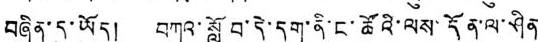བཞིན་དུ་ཡོད། བཀའ་སློབ་དེ་དག་ནི་ང་ཚོའི་ལས་དོན་ལ་ཤིན
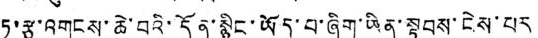ཏུ་རྩ་འགངས་ཆེ་བའི་དོན་སྙིང་ཡོད་པ་ཞིག་ཡིན་སྟབས་ངེས་པར
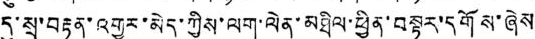དུ་སྲ་བརྟན་འགྱུར་མེད་ཀྱིས་ལག་ལེན་མཐིལ་ཕྱིན་བསྟར་དགོས་ཞེས
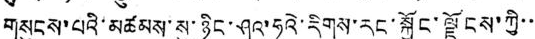གསུངས་པའི་མཚམས་སུ་ཉིང་ཤའ་ཧུའེ་རིགས་རང་སྐྱོང་ལྗོངས་ཀྱི་་
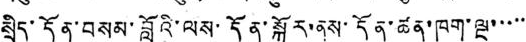སྲིད་དོན་བསམ་བློའི་ལས་དོན་སྐོར་ནས་དོན་ཚན་ཁག་ལྔ་་་་་་
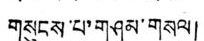གསུངས་པ་གཤམ་གསལ།
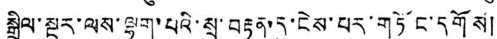སྒྲིལ་སྔར་ལས་ལྷག་པའི་སྲ་བརྟན་དུ་ངེས་པར་གཏོང་དགོས།
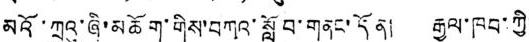མའོ་ཀྲུའུ་ཞི་མཆོག་གིས་བཀའ་སློབ་གནང་དོན། རྒྱལ་ཁབ་ཀྱི་
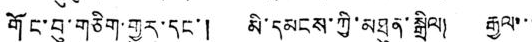གོང་བུ་གཅིག་གྱུར་དང་། མི་དམངས་ཀྱི་མཐུན་སྒྲིལ། རྒྱལ་་་
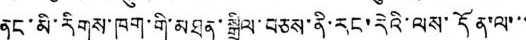ནང་མི་རིགས་ཁག་གི་མཐུན་སྒྲིལ་བཅས་ནི་རང་རེའི་ལས་དོན་ལ་་་
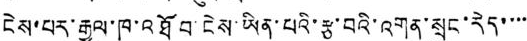ངེས་པར་རྒྱལ་ཁ་འཐོབ་ངེས་ཡིན་པའི་རྩ་བའི་འགན་སྲུང་རེད་་་་་
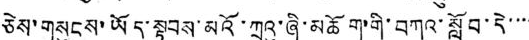ཅེས་གསུངས་ཡོད་སྟབས་མའོ་ཀྲུའུ་ཞི་མཆོག་གི་བཀའ་སློབ་དེ་་་་
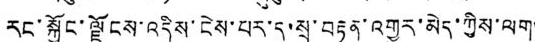རང་སྐྱོང་ལྗོངས་འདིས་ངེས་པར་དུ་སྲ་བརྟན་འགྱུར་མེད་ཀྱིས་ལག་
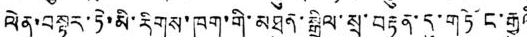ལེན་བསྟར་ཏེ་མི་རིགས་ཁག་གི་མཐུན་སྒྲིལ་སྲ་བརྟན་དུ་གཏོང་རྒྱུའི
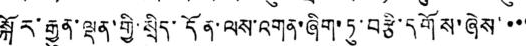སྐོར་རྒྱུན་ལྡན་གྱི་སྲིད་དོན་ལས་འགན་ཞིག་ཏུ་བརྩི་དགོས་ཞེས་་་་
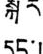དང་།
